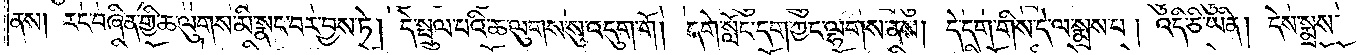ནས། རང་བཞིན་གྱི་ཆ་ལུགས་མི་སྣང་བར་བྱས་ཏེ། དེ་སྤྲུལ་པའི་ཆ་ལུགས་སུ་འདུག་གོ། དགེ་སློང་དག་ཀྱང་ལྷགས་ནས། དེ་དག་གིས་དེ་ལ་སྨྲས་པ། འདི་ཅི་ཡིན། དེས་སྨྲས་
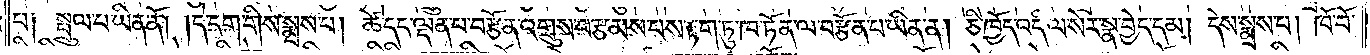པ༑ སྤྲུལ་པ་ཡིན་ནོ། །དེ་དག་གིས་སྨྲས་པ། ཚེ་དང་ལྡན་པ་བརྩོན་འགྲུས་བརྩམས་པས་རྟག་ཏུ་ཁ་ཏོན་ལ་བརྩོན་པ་ཡིན་ན། ཅི་ཁྱོད་འདི་ལ་སེར་སྣ་བྱེད་དམ། དེས་སྨྲས་པ། ཁོ་བོ་
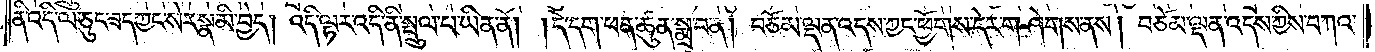ནི་འདི་ལ་ཅུང་ཟད་ཀྱང་སེར་སྣ་མི་བྱེད། འདི་ལྟར་འདི་ནི་སྤྲུལ་པ་ཡིན་ནོ། །དེ་དག་ཕན་ཚུན་སྨྲ་བ་ན། བཅོམ་ལྡན་འདས་ཀྱང་ཕྱོགས་དེར་གཤེགས་ནས། བཅོམ་ལྡན་འདས་ཀྱིས་བཀའ་
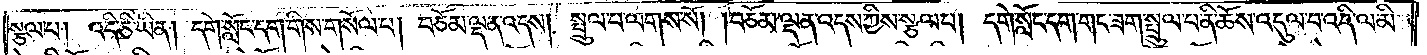སྩལ་པ། འདི་ཅི་ཡིན། དགེ་སློང་དག་གིས་གསོལ་པ། བཅོམ་ལྡན་འདས། སྤྲུལ་པ་ལགས་སོ། །བཅོམ་ལྡན་འདས་ཀྱིས་སྩལ་པ། དགེ་སློང་དག་གང་ཟག་སྤྲུལ་པ་ནི་ཆོས་འདུལ་བ་འདི་ལ་མི་
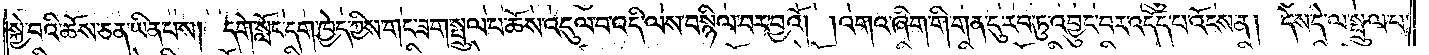སྐྱེ་བའི་ཆོས་ཅན་ཡིན་པས། དགེ་སློང་དག་ཁྱེད་ཀྱིས་གང་ཟག་སྤྲུལ་པ་ཆོས་འདུལ་བ་འདི་ལས་བསྙིལ་བར་བྱའོ། །འགའ་ཞིག་གི་གན་དུ་རབ་ཏུ་འབྱུང་བར་འདོད་པ་འོངས་ན། དེས་དེ་ལ་སྤྲུལ་པ་
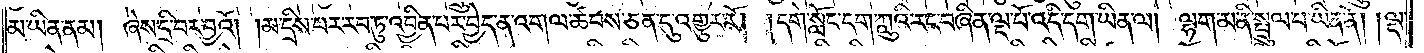མ་ཡིན་ནམ། ཞེས་དྲི་བར་བྱའོ། །མ་དྲིས་པར་རབ་ཏུ་འབྱིན་པར་བྱེད་ན་འགལ་ཚབས་ཅན་དུ་འགྱུར་རོ། །དགེ་སློང་དག་ཀླུའི་རང་བཞིན་ལྔ་པོ་འདི་དག་ཡིན་ལ། ལྷག་མ་ནི་སྤྲུལ་པ་ཡིན་ནོ། །ལྔ་
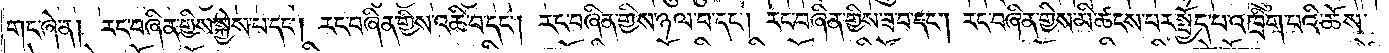གང་ཞེ་ན། རང་བཞིན་གྱིས་སྐྱེས་པ་དང༌། རང་བཞིན་གྱིས་འཆི་བ་དང༌། རང་བཞིན་གྱིས་ཉལ་བ་དང༌། རང་བཞིན་གྱིས་ཟ་བ་དང༌། རང་བཞིན་གྱིས་མི་ཚངས་པར་སྤྱོད་པ་འཁྲིག་པའི་ཆོས་
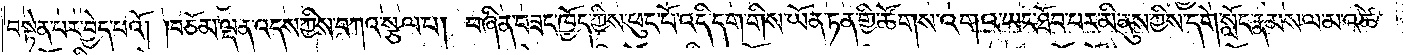བསྟེན་པར་བྱེད་པའོ། །བཅོམ་ལྡན་འདས་ཀྱིས་བཀའ་སྩལ་པ། བཞིན་བཟང་ཁྱོད་ཀྱིས་ཕུང་པོ་འདི་དག་གིས་ཡོན་ཏན་གྱི་ཚོགས་འགའ་ཡང་ཐོབ་པར་མི་ནུས་ཀྱིས་དགེ་སློང་རྣམས་ལ་མ་འཚེ་
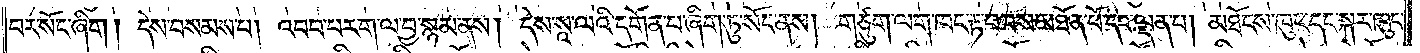བར་སོང་ཞིག། དེས་བསམས་པ། འབབ་པར་ག་ལ་བྱ་སྙམ་ནས། དེས་སཱ་ལའི་དགོན་པ་ཞིག་ཏུ་སོང་ནས། གཙུག་ལག་ཁང་རྟ་བབས་མཐོན་པོ་དང་ལྡན་པ། མཐོངས་ཁུང་དང་སྐར་ཁུང་
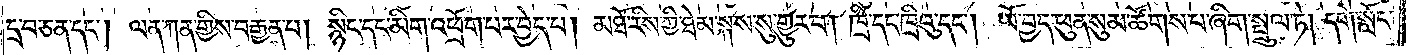དྲ་བ་ཅན་དང༌། ལན་ཀན་གྱིས་བརྒྱན་པ། སྙིང་དང་མིག་འཕྲོག་པར་བྱེད་པ། མཐོ་རིས་ཀྱི་ཐེམ་སྐས་སུ་གྱུར་པ། ཁྲི་དང་ཁྲིའུ་དང༌། ཡོ་བྱད་ཕུན་སུམ་ཚོགས་པ་ཞིག་སྤྲུལ་ཏེ། དགེ་སློང་
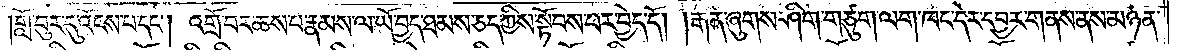གློ་བུར་དུ་འོངས་པ་དང༌། འགྲོ་བར་ཆས་པ་རྣམས་ལ་ཡོ་བྱད་ཐམས་ཅད་ཀྱིས་སྟོབས་པར་བྱེད་དོ། །རྒན་ཞུགས་ཤིག་གཙུག་ལག་ཁང་དེར་དབྱར་གནས་ནས་མཉན་
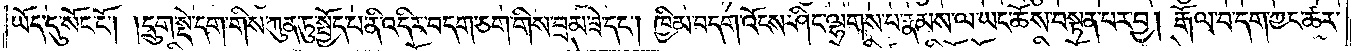ཡོད་དུ་སོང་ངོ༌། །དྲུག་སྡེ་དག་གིས་ཀུན་ཏུ་སྤྱོད་པ་ནི་འདིར་བ་དག་ཅག་གིས་བྲམ་ཟེ་དང༌། ཁྱིམ་བདག་འོངས་ཤིང་ལྷགས་པ་རྣམས་ལ་ཡང་ཆོས་བསྟན་པར་བྱ། རྒོལ་བ་དག་ཀྱང་ཚར་
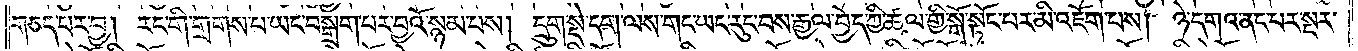གཅད་པར་བྱ། རང་གི་གྲགས་པ་ཡང་བསྒྲག་པར་བྱའོ་སྙམ་པས། དྲུག་སྡེ་དག་ལས་གང་ཡང་རུང་བས་རྒྱལ་བྱེད་ཀྱི་ཚལ་གྱི་སྒོ་སྟོང་པར་མི་འཇོག་པས། ཉེ་དགའ་ནང་པར་སྔར་
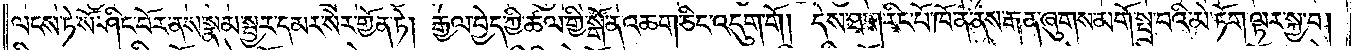ལངས་ཏེ་སོ་ཤིང་བོར་ནས་སྣམ་སྦྱར་དམར་སེར་གྱོན་ཏེ། རྒྱལ་བྱེད་ཀྱི་ཚལ་གྱི་སྒོ་ན་འཆག་ཅིང་འདུག་གོ། དེས་ཐག་རིང་པོ་ཁོ་ན་ནས་རྒན་ཞུགས་མགོ་སྤྲ་བའི་མེ་ཏོག་ལྟར་སྐྱ་བ།
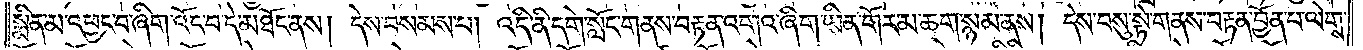སྨིན་མ་འཕྱང་བ་ཞིག་འོང་བ་དེ་མཐོང་ནས། དེས་བསམས་པ། འདི་ནི་དགེ་སློང་གནས་བརྟན་འགའ་ཞིག་ཡིན་གོར་མ་ཆག་སྙམ་ནས། དེས་བསུ་སྟེ་གནས་བརྟན་བྱོན་པ་ལེགས་
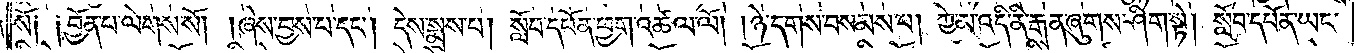སོ༏ ༏ བྱོན་པ་ལེགས་སོ། །ཞེས་བྱས་པ་དང༌། དེས་སྨྲས་པ། སློབ་དཔོན་ཕྱག་འཚལ་ལོ། །ཉེ་དགས་བསམས་པ། ཀྱེ་མ་འདི་ནི་རྒན་ཞུགས་ཤིག་སྟེ། སློབ་དཔོན་ཡང་
